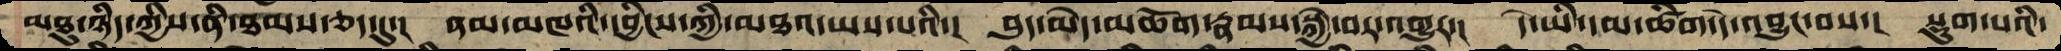མཐུ་ཉིད་ཀྱིས་ནི་ཐམས་ཅད་དུ་།  ནམ་མཁའི་དབྱིངས་ཀྱི་མཐའ་ཡས་པའི་།  བུད་མེད་མཆོག་རྣམས་སྐྱེ་བར་འགྱུར་།  དེ་ཡི་དམ་ཚིག་དེ་འབྱུང་བས་།  སྡུག་པའི་
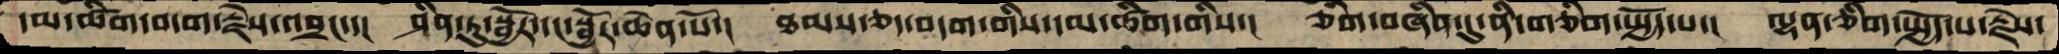དམ་ཚིག་བདག་རྗེས་འབྲང་་།  ཤིན་ཏུ་སྦྱོར་དང་སྦྱོར་ཆེན་པོ་།  ཐམས་ཅད་བདག་གིས་དམ་ཚིག་གིས་།  ཅིག་བཞིན་དུ་ནི་གཅིག་སྤྱོད་པ་།  ལྷན་ཅིག་སྤྱོད་པ་རྗེས་
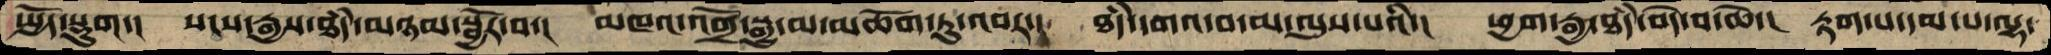སྤྱོད་སྡུག་།  སངས་རྒྱས་ཐཾད་མཉམ་སྦྱོར་བ་།  མཁའ་འགྲོ་སྒྱུ་མ་མཆོག་ཏུ་འབར་།  ཐཾད་དགའ་བ་མ་ལུས་པའི་།  ཕྱག་རྒྱ་ཐཾད་བདེ་བ་ཆེ་།  རྟག་པ་དམ་པ་ལྷ་
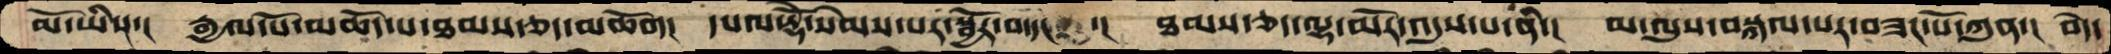མོ་ཡིས་།    རྒྱལ་པོ་མཆོད་པ་ཐམས་ཅད་མཆོག།   དཔལ་རྡོེ་སེམས་པར་སྦྱོར་བ་དང་།   ཐམས་ཅད་ལྷ་མོར་འདུས་པ་ནི་།   མ་ལུས་བསྐལ་པར་བཟང་པོ་ཀུན་།  བདེ་
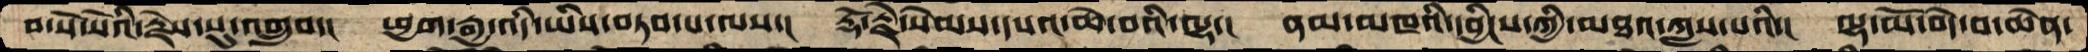བ་སོ་སོའི་རྗེས་སུ་འགྲུབ་།  ཕྱག་རྒྱ་འདི་ཡིས་བཏབ་པ་ལས་།  རྡོ་རྗེ་སེམས་དཔའ་ཆེ་བའི་ལྷ་།  ནམ་མཁའི་དབྱིངས་ཀྱི་མཐའ་ཀླས་པའི་།  ལྷ་མོ་བདེ་བ་ཆེན་
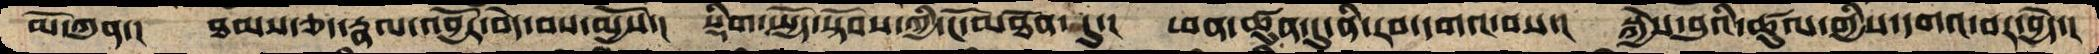མོ་ཀུན་།  ཐམས་ཅད་རྣལ་འབྱོར་བདེ་བས་མྱོས་།  སྡིག་སྤྱོད་སྟོབས་ཀྱི་ངོ་མཐོན་དུ་།  ཕན་ཚུན་དུ་ནི་རབ་དགའ་བས་།  སྐྱེས་བུའི་ཚུལ་གྱིས་དགའ་བར་བྱེད་།
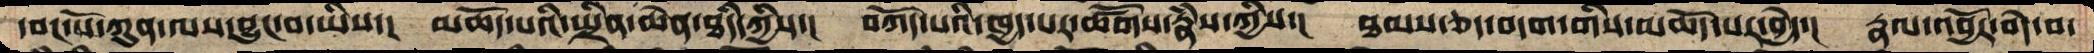དབང་པོ་ཀུན་ལས་བྱུང་བ་ཡིས་།  མཆོད་པའི་སྤྲིན་ཆེན་ཐཾད་ཀྱིས་།  བཀོད་པའི་ཁྱད་པར་ཚོགས་རྣཾས་ཀྱིས་།  ཐམས་ཅད་བདག་གིས་མཆོད་པར་བྱེད་།  རྣལ་འབྱོར་བདེ་བ་
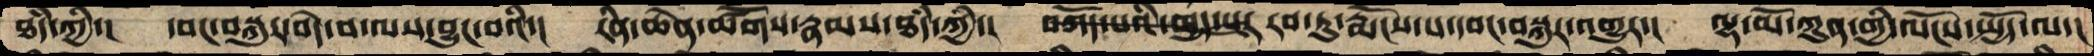ཐཾད་ཀྱི་།  དབང་བསྐུར་བདེ་བ་ལས་བྱུང་བའི་།  རིན་ཆེན་ཚོགས་རྣམས་ཐཾད་ཀྱི་།  བཀོད་པའི་ཁྱད་པར་  རབ་ཏུ་རྨོངས་པ་དབང་བསྐུར་འགྱུར་།  ལྷ་མོ་ཀུན་གྱི་ལོངས་སྤྱོད་ལ་།
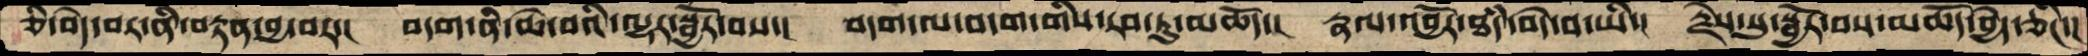ཅི་བདེ་བར་ནི་བརྟན་བྱ་བར་།  བདག་ནི་ཆེ་བའི་ལྷར་སྦྱོར་བས་།།  བདག་ལ་བདག་གིས་རབ་ཏུ་མཆོད་།  རྣལ་འབྱོར་ཐཾད་བདེ་བ་ཡི་།  རྗེས་སུ་སྦྱོར་བས་མཆོད་བྱེད་ཅིང་།
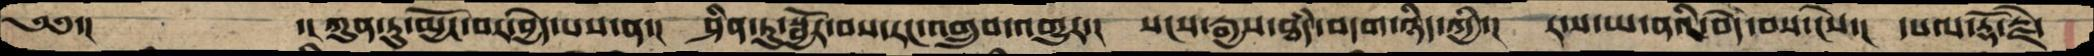༄༅་།      ་།ཀུན་ཏུ་མྱོང་བར་བྱེད་པས་ན་།  ཤིན་ཏུ་སྦྱོར་བས་རང་འགྲུབ་འགྱུར་།  སངས་རྒྱས་ཐཾད་བདག་ཉིད་ཀྱི་།  ར་ས་ཡ་ནའི་བདེ་བས་ངེས་།  དཔལ་རྡོ་རྗེ་
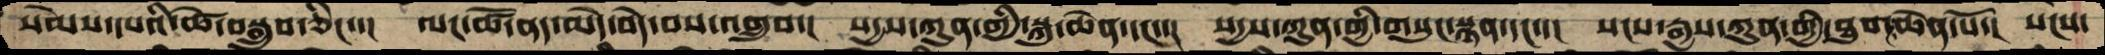སེམས་དཔའི་ཚེ་བསྒྲུབ་ཅིང་་།  ལང་ཚོ་ནད་མེད་བདེ་བས་འགྲུབ་།  སདྱས་ཀུན་གྱི་སྐུ་ཆེན་དང་་།  སདྱས་ཀུན་གྱི་གསུང་སྙན་དང་་།  སངས་རྒྱས་ཀུན་གྱི་ཐུགས་ཆེན་པོ་།  སངས་
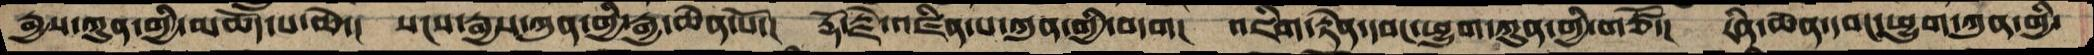རྒྱས་ཀུན་གྱི་མཆོད་པ་ཆེ་།  སངས་རྒྱས་ཀུན་གྱི་རྒྱུ་ཆེན་པོ་།  རྡོ་རྗེ་འཛིན་པ་ཀུན་གྱི་བདག།  འཇིག་རྟེན་དབང་ཕྱུག་ཀུན་གྱི་གཙོ་།  རིན་ཆེན་དབང་ཕྱུག་ཀུན་གྱི་
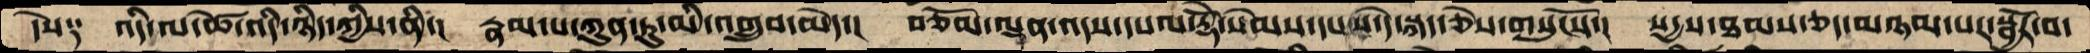དེས༑  འདི་ལ་ཚེ་འདི་ཉིད་ཀྱིས་ནི་།  རྣམ་པ་ཀུན་ཏུ་མི་འགྲུབ་མེད་།  བཅོམ་ལྡན་འདས་དཔལ་རྡོེ་སེམས་དཔས་དེ་སྐད་ཅེས་གསུངསོ་།  སདྱས་ཐམས་ཅད་མཉམ་པར་སྦྱོར་བ་
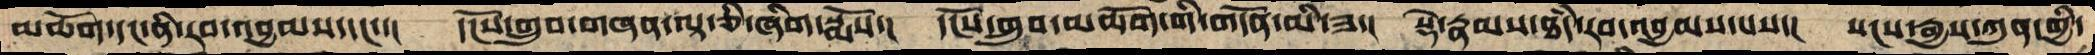མཆོག་དང་ནི་རབ་འབྱམས་དང་་།  དངོས་གྲུབ་གཞན་ལྟ་ཅི་ཞིག་སྨོས་།  དངོས་གྲུབ་མཆོག་གི་གདོན་མི་ཟ་།  སྡེ་རྣམས་ཐཾད་རབ་འབྱམས་པས་།  སངས་རྒྱས་ཀུན་གྱི་
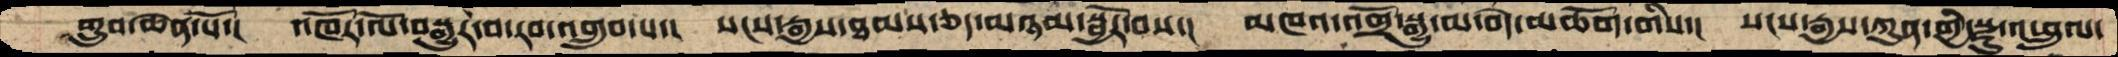གྲུབ་ཆེན་པོ་།  འཁོར་ལོ་བསྒྱུར་བ་རབ་འགྲུབ་པ་།  སངས་རྒྱས་ཐམས་ཅད་མཉམ་སྦྱོར་བས་།  མཁའ་འགྲོ་སྒྱུ་མ་བདེ་མཆོག་གིས་།  སངས་རྒྱས་ཀུན་གྱི་སྫུ་འཕྲུལ་
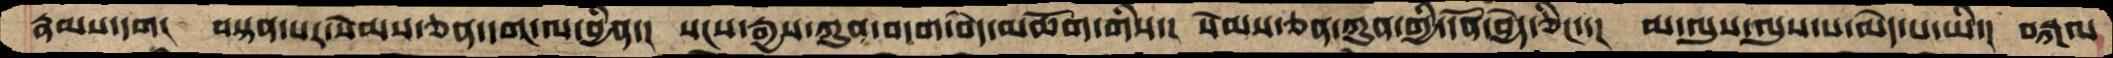རྣམས་དག།  བསྟན་པར་སེམས་ཅད་དབང་ལ་བྱིན་།  སངས་རྒྱས་ཀུན་བདག་བདེ་མཆོག་གིས་།  སེམས་ཅན་ཀུན་གྱི་དོན་བྱེད་ཅིང་་།  མ་ལུས་ལུས་པ་མེད་པ་ཡི་།  བསྐལ་
